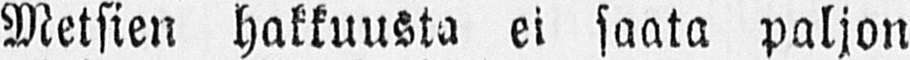Metsien hakkuusta ei saata paljon
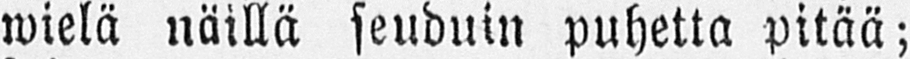wielä näillä seuduin puhetta pitää;
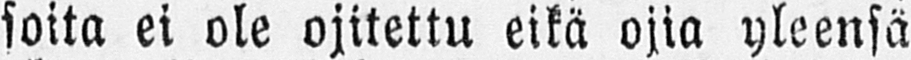soita ei ole ojitettu eikä ojia yleensä
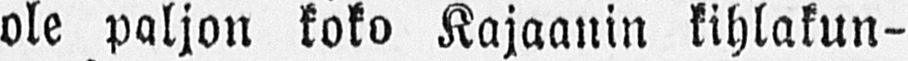ole paljon koko Kajaanin kihlakun-
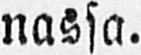nassa.
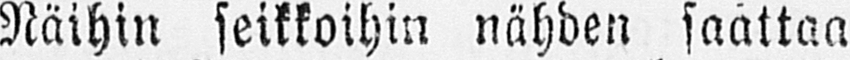Näihin seikkoihin nähden saattaa
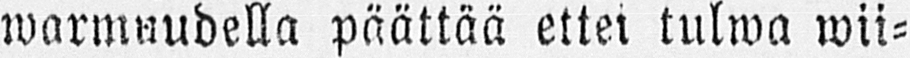warmnudella päättää ettei tulwa wii-
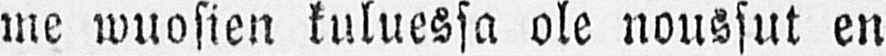me wuosien kuluessa ole noussut en
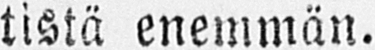tistä enemmän.
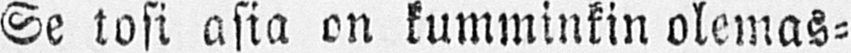Se tosi asia on kumminkin olemas-
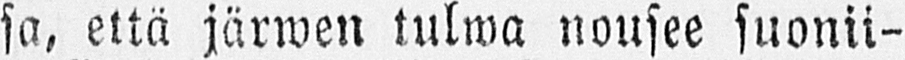sa, että järwen tulwa nousee suonii-
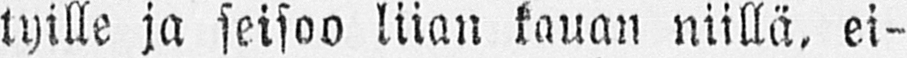tyille ja seisoo liian kauan niillä, ei-
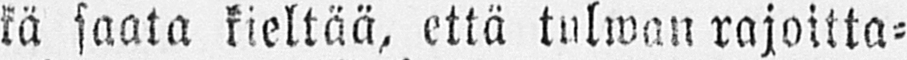kä saata kieltää, että tulwan rajoitta-
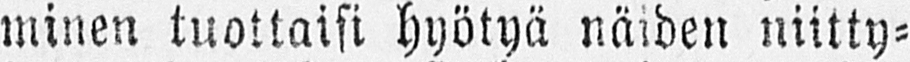minen tuottaisi hyötyä näiden niitty-
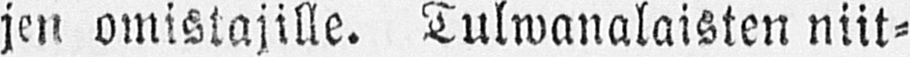jen omistajille. Tulwanalaisten niit-
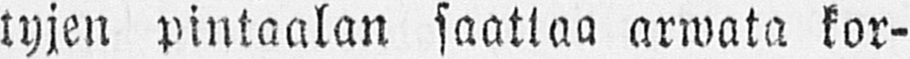tyjen pintaalan saattaa arwata kor-
